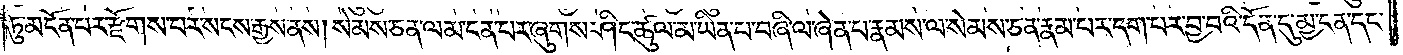ཏུ་མངོན་པར་རྫོགས་པར་སངས་རྒྱས་ནས། སེམས་ཅན་ལམ་ངན་པར་ཞུགས་ཤིང་ཚུལ་མ་ཡིན་པ་བཞི་ལ་ཞེན་པ་རྣམས་ལ་སེམས་ཅན་རྣམ་པར་དག་པར་བྱ་བའི་དོན་དུ་མྱ་ངན་དང་
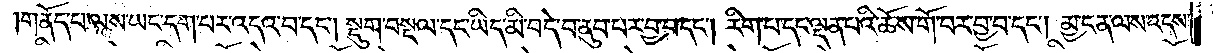གནོད་པ་ལས་ཡང་དག་པར་འདའ་བ་དང༌། སྡུག་བསྔལ་དང་ཡིད་མི་བདེ་བ་ནུབ་པར་བྱ་བ་དང༌། རིག་པ་དང་ལྡན་པའི་ཆོས་གོ་བར་བྱ་བ་དང༌། མྱ་ངན་ལས་འདས་
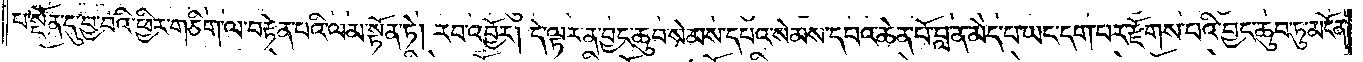པ་སྔོན་དུ་བྱ་བའི་ཕྱིར་གཅིག་ལ་བརྟེན་པའི་ལམ་སྟོན་ཏེ། རབ་འབྱོར། དེ་ལྟར་ན་བྱང་ཆུབ་སེམས་དཔའ་སེམས་དཔའ་ཆེན་པོ་བླ་ན་མེད་པ་ཡང་དག་པར་རྫོགས་པའི་བྱང་ཆུབ་ཏུ་མངོན་
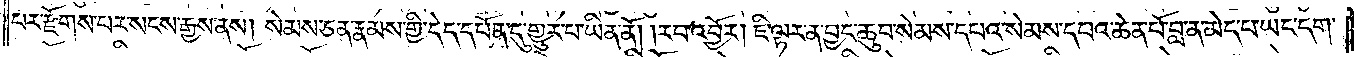པར་རྫོགས་པར་སངས་རྒྱས་ནས། སེམས་ཅན་རྣམས་གྱི་དེད་དཔོན་དུ་གྱུར་པ་ཡིན་ནོ། །རབ་འབྱོར། ཇི་ལྟར་ན་བྱང་ཆུབ་སེམས་དཔའ་སེམས་དཔའ་ཆེན་པོ་བླ་ན་མེད་པ་ཡང་དག་
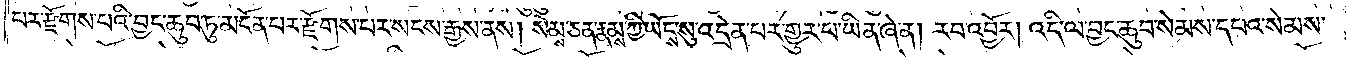པར་རྫོགས་པའི་བྱང་ཆུབ་ཏུ་མངོན་པར་རྫོགས་པར་སངས་རྒྱས་ནས། སེམས་ཅན་རྣམས་ཀྱི་འདྲེན་པར་གྱུར་པ་ཡིན་ཞེ་ན། རབ་འབྱོར། འདི་ལ་བྱང་ཆུབ་སེམས་དཔའ་སེམས་
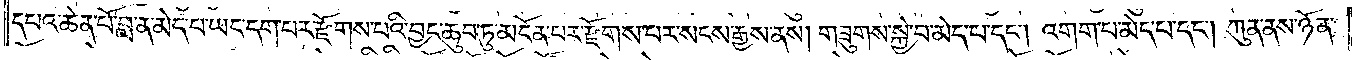དཔའ་ཆེན་པོ་བླ་ན་མེད་པ་ཡང་དག་པར་རྫོགས་པའི་བྱང་ཆུབ་ཏུ་མངོན་པར་རྫོགས་པར་སངས་རྒྱས་ནས། གཟུགས་སྐྱེ་བ་མེད་པ་དང༌། འགག་པ་མེད་པ་དང༌། ཀུན་ནས་ཉོན་
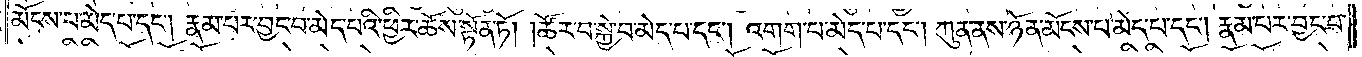མོངས་པ་མེད་པ་དང༌། རྣམ་པར་བྱང་བ་མེད་པའི་ཕྱིར་ཆོས་སྟོན་ཏོ། །ཚོར་བ་སྐྱེ་བ་མེད་པ་དང༌། འགག་པ་མེད་པ་དང༌། ཀུན་ནས་ཉོན་མོངས་པ་མེད་པ་དང༌། རྣམ་པར་བྱང་བ་
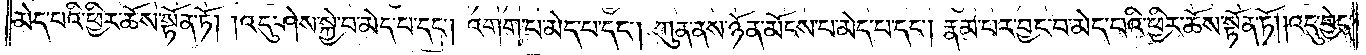མེད་པའི་ཕྱིར་ཆོས་སྟོན་ཏོ། །འདུ་ཤེས་སྐྱེ་བ་མེད་པ་དང༌། འགག་པ་མེད་པ་དང༌། ཀུན་ནས་ཉོན་མོངས་པ་མེད་པ་དང༌། རྣམ་པར་བྱང་བ་མེད་པའི་ཕྱིར་ཆོས་སྟོན་ཏོ། །འདུ་བྱེད་
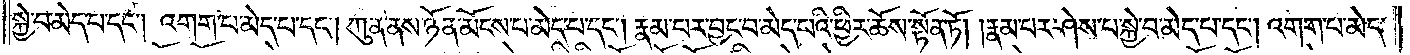སྐྱེ་བ་མེད་པ་དང༌། འགག་པ་མེད་པ་དང༌། ཀུན་ནས་ཉོན་མོངས་པ་མེད་པ་དང༌། རྣམ་པར་བྱང་བ་མེད་པའི་ཕྱིར་ཆོས་སྟོན་ཏོ། །རྣམ་པར་ཤེས་པ་སྐྱེ་བ་མེད་པ་དང༌། འགག་པ་མེད་
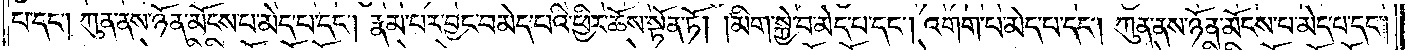པ་དང༌། ཀུན་ནས་ཉོན་མོངས་པ་མེད་པ་དང༌། རྣམ་པར་བྱང་བ་མེད་པའི་ཕྱིར་ཆོས་སྟོན་ཏོ། །མིག་སྐྱེ་བ་མེད་པ་དང༌། འགག་པ་མེད་པ་དང༌། ཀུན་ནས་ཉོན་མོངས་པ་མེད་པ་དང༌།
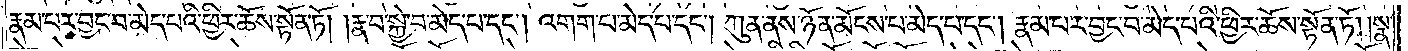རྣམ་པར་བྱང་བ་མེད་པའི་ཕྱིར་ཆོས་སྟོན་ཏོ། །རྣ་བ་སྐྱེ་བ་མེད་པ་དང༌། འགག་པ་མེད་པ་དང༌། ཀུན་ནས་ཉོན་མོངས་པ་མེད་པ་དང༌། རྣམ་པར་བྱང་བ་མེད་པའི་ཕྱིར་ཆོས་སྟོན་ཏོ། །སྣ་
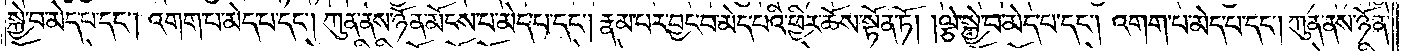སྐྱེ་བ་མེད་པ་དང༌། འགག་པ་མེད་པ་དང༌། ཀུན་ནས་ཉོན་མོངས་པ་མེད་པ་དང༌། རྣམ་པར་བྱང་བ་མེད་པའི་ཕྱིར་ཆོས་སྟོན་ཏོ། །ལྕེ་སྐྱེ་བ་མེད་པ་དང༌། འགག་པ་མེད་པ་དང༌། ཀུན་ནས་ཉོན་
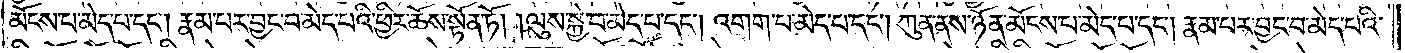མོངས་པ་མེད་པ་དང༌། རྣམ་པར་བྱང་བ་མེད་པའི་ཕྱིར་ཆོས་སྟོན་ཏོ། །ལུས་སྐྱེ་བ་མེད་པ་དང༌། འགག་པ་མེད་པ་དང༌། ཀུན་ནས་ཉོན་མོངས་པ་མེད་པ་དང༌། རྣམ་པར་བྱང་བ་མེད་པའི་
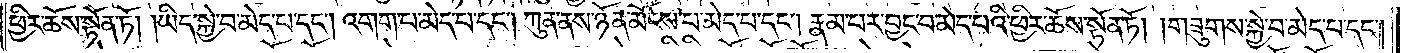ཕྱིར་ཆོས་སྟོན་ཏོ། །ཡིད་སྐྱེ་བ་མེད་པ་དང༌། འགག་པ་མེད་པ་དང༌། ཀུན་ནས་ཉོན་མོངས་པ་མེད་པ་དང༌། རྣམ་པར་བྱང་བ་མེད་པའི་ཕྱིར་ཆོས་སྟོན་ཏོ། །གཟུགས་སྐྱེ་བ་མེད་པ་དང༌།
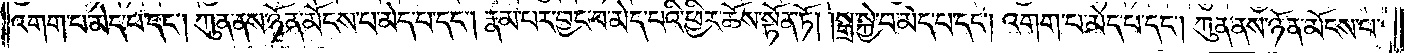འགག་པ་མེད་པ་དང༌། ཀུན་ནས་ཉོན་མོངས་པ་མེད་པ་དང༌། རྣམ་པར་བྱང་བ་མེད་པའི་ཕྱིར་ཆོས་སྟོན་ཏོ། །སྒྲ་སྐྱེ་བ་མེད་པ་དང༌། འགག་པ་མེད་པ་དང༌། ཀུན་ནས་ཉོན་མོངས་པ་
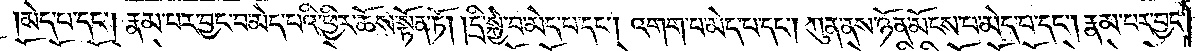མེད་པ་དང༌། རྣམ་པར་བྱང་བ་མེད་པའི་ཕྱིར་ཆོས་སྟོན་ཏོ། །དྲི་སྐྱེ་བ་མེད་པ་དང༌། འགག་པ་མེད་པ་དང༌། ཀུན་ནས་ཉོན་མོངས་པ་མེད་པ་དང༌། རྣམ་པར་བྱང་
